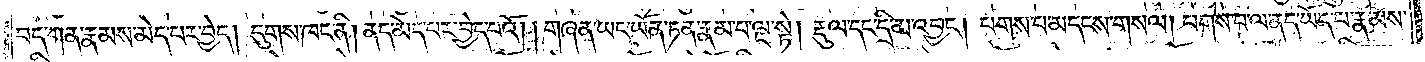བད་ཀན་རྣམས་མེད་པར་བྱེད། དུགས་ཁང་ནི། ནད་མེད་པར་བྱེད་པའོ། །གཞན་ཡང་ཡོན་ཏན་རྣམ་པ་ལྔ་སྟེ། རྡུལ་དང་དྲི་མ་འབྱང༌། པགས་པ་མདངས་གསལ། པགས་པ་ལ་ནད་ཡོད་པ་རྣམས་
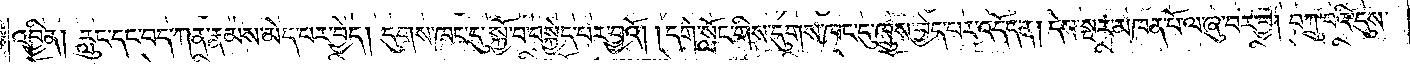འབྱིན། རླུང་དང་བད་ཀན་རྣམས་མེད་པར་བྱེད། དུགས་ཁང་དུ་སྐྱོ་བ་བསྐྱེད་པར་བྱའོ། །དགེ་སློང་གིས་དུགས་ཁང་དུ་ཁྲུས་བྱེད་པར་འདོད་ན། དེས་སྔར་མཁན་པོ་ལ་ཞུ་བར་བྱ། བཀྲུ་བའི་དུས་
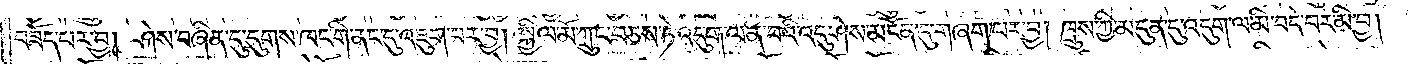བཟོད་པར་བྱ། ཤེས་བཞིན་དུ་དུགས་ཁང་གི་ནང་དུ་འཇུག་པར་བྱ། སྐྱིལ་མོ་ཀྲུང་བཅས་ཏེ་འདུག་ལ་ན་བའི་འདུ་ཤེས་མངོན་དུ་གཞག་པར་བྱ། ཁྲུས་ཀྱི་མདུན་དུ་འདུག་ལ་མི་བདེ་བར་མི་བྱ།
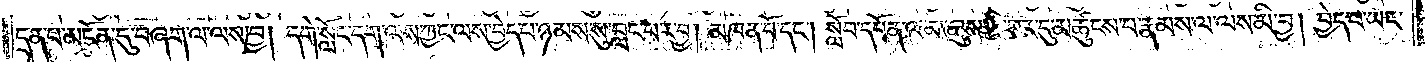དྲན་པ་མངོན་དུ་བཞག་ལ་ལས་བྱ། དགེ་སློང་དག་ལས་ཀྱང་ལས་བྱེད་པ་ཉམས་སུ་བླང་བར་བྱ། མཁན་པོ་དང༌། སློབ་དཔོན་ལ་མ་ཞུས་ཀྱི་བར་དུ་མཚུངས་པ་རྣམས་ལ་ལས་མི་བྱ། བྱེད་པ་ཡང་
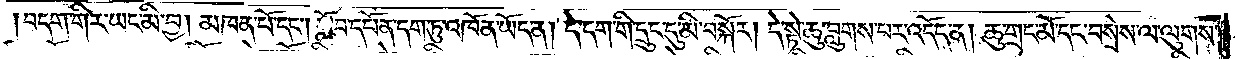བདག་གིར་ཡང་མི་བྱ། མཁན་པོ་དང༌། སློབ་དཔོན་དག་ཏུ་འཁོན་ཡོད་ན། དེ་དག་གི་དྲུང་དུ་མི་བསྐོར། དེ་སྟེ་ཆུ་བླུགས་པར་འདོད་ན། ཆུ་གྲང་མོ་དང་བསྲེས་ལ་ལུགས་
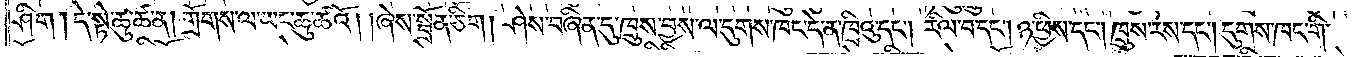ཤིག །དེ་སྟེ་ཆུ་ཚ་ན། གྲོགས་ལ་ཡང་ཆུ་ཚའོ། །ཞེས་སྦྲོན་ཅིག །ཤེས་བཞིན་དུ་ཁྲུས་བྱས་ལ་དུགས་ཁང་དེ་ན་ཁྲིའུ་དང༌། རིལ་བ་དང༌། ཉ་ཕྱིས་དང༌། ཁྲུས་རས་དང༌། དུགས་ཁང་གི་
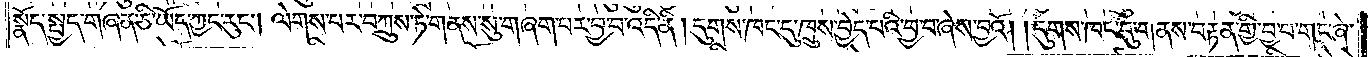སྣོད་སྤྱད་གཞན་ཅི་ཡོད་ཀྱང་རུང༌། ལེགས་པར་བཀྲུས་ཏེ་གནས་སུ་གཞག་པར་བྱ་བ་འདི་ནི། དུགས་ཁང་དུ་ཁྲུས་བྱེད་པའི་བྱ་བ་ཞེས་བྱའོ། །དུགས་ཁང་དུ་གནས་བརྟན་གྱི་བྱ་བ་གང་ཞེ་
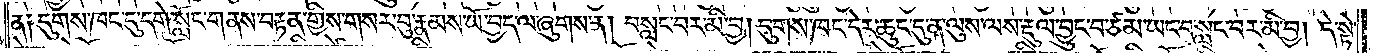ན༑ དུགས་ཁང་དུ་དགེ་སློང་གནས་བརྟན་གྱིས་གསར་བུ་རྣམས་ཡོ་བྱད་ལ་ཞུགས་ན། བསླང་བར་མི་བྱ། དུགས་ཁང་དེར་ཆུང་དུ་ན་ལུས་ལས་རྡུལ་བྱུང་བ་ཙམ་ཡང་བསླང་བར་མི་བྱ། དེ་སྟེ་
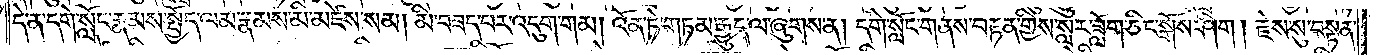དེ་ན་དགེ་སློང་རྣམས་སྤྱོད་ལམ་རྣམས་མི་མཛེས་སམ། མི་བཟད་པར་འདུག་གམ། འོན་ཏེ་གཏམ་རྒྱུད་ལ་ཞུགས་ན། དགེ་སློང་གནས་བརྟན་གྱིས་སླར་ཟློག་ཅིང་སྒོས་ཤིག །རྗེས་སུ་བསྟན་
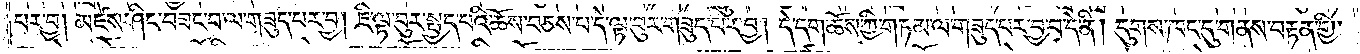པར་བྱ། མཛེས་ཤིང་བཟང་བ་ལ་གཟུད་པར་བྱ། ཇི་ལྟ་བུར་སྤྱད་པའི་ཆོས་བཅས་པ་དེ་ལྟ་བུར་གཟུད་པར་བྱ། དེ་དག་ཆོས་ཀྱི་གཏམ་ལ་གཟུད་པར་བྱ་བ་དེ་ནི། དུགས་ཁང་དུ་གནས་བརྟན་གྱི་
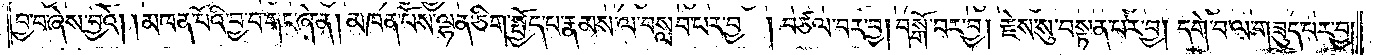བྱ་བ་ཞེས་བྱའོ། །མཁན་པོའི་བྱ་བ་གང་ཞེ་ན། མཁན་པོས་ལྷན་ཅིག་སྤྱོད་པ་རྣམས་ལ་བསླབ་པར་བྱ། བཙལ་བར་བྱ། བསྒོ་བར་བྱ། རྗེས་སུ་བསྟན་པར་བྱ། དགེ་བ་ལ་གཟུད་པར་བྱ།
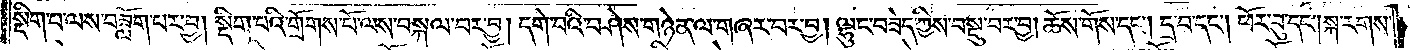སྡིག་པ་ལས་བཟློག་པར་བྱ། སྡིག་པའི་གྲོགས་པོ་ལས་བསྐལ་པར་བྱ། དགེ་བའི་བཤེས་གཉེན་ལ་གཞར་བར་བྱ། ལྷུང་བཟེད་ཀྱིས་བསྡུ་བར་བྱ། ཆོས་གོས་དང༌། དྲ་བ་དང༌། ཕོར་བུ་དང༌། སྐ་རགས་
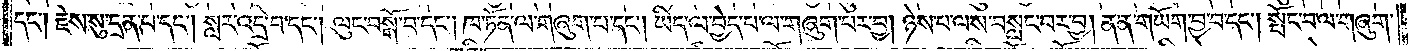དང༌། རྗེས་སུ་དྲན་པ་དང༌། སླར་འདྲི་བ་དང༌། ལུང་བསྒོ་བ་དང༌། ཁ་ཏོན་ལ་གཞུག་པ་དང༌། ཡིད་ལ་བྱེད་པ་ལ་གཞུག་པར་བྱ། ཉེས་པ་ལས་བསང་བར་བྱ། ན་ན་གཡོག་བྱ་བ་དང༌། སྤོང་བ་ལ་གཞུག་
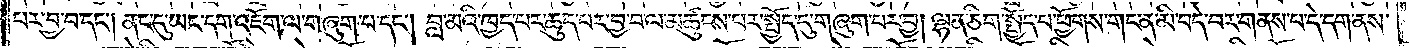པར་བྱ་བ་དང༌། ནང་དུ་ཡང་དག་འཇོག་ལ་གཞུག་པ་དང༌། བླ་མའི་ཁྱད་པར་ཆུད་པར་བྱ་བ་ལ་མཚུངས་པར་སྤྱོད་དུ་གཞུག་པར་བྱ། ལྷན་ཅིག་སྤྱོད་པ་ཕྱོགས་གང་ན་མི་བདེ་བར་གནས་པ་དེ་དག་ནས་
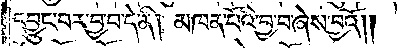དབྱུང་བར་བྱ་བ་དེ་ནི། མཁན་པོའི་བྱ་བ་ཞེས་བྱའོ༎
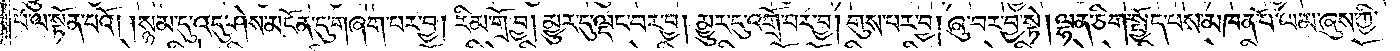པོ་ལ་སྟོན་པའོ། སྙམ་དུ་འདུ་ཤེས་མངོན་དུ་གཞག་པར་བྱ། རིམ་གྲོ་བྱ། མྱུར་དུ་ལྡང་བར་བྱ། མྱུར་དུ་འགྲོ་བར་བྱ། གུས་པར་བྱ། ཞུ་བར་བྱ་སྟེ། ལྷན་ཅིག་སྤྱོད་པས་མཁན་པོ་ལ་མ་ཞུས་ཀྱི་
